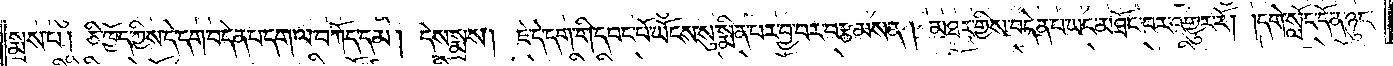སྨྲས་པ། ཅི་ཁྱོད་ཀྱིས་དེ་དག་བདེན་པ་དག་ལ་བཀོད་དམ། དེས་སྨྲས། ཇེ་དེ་དག་གི་དབང་པོ་ཡོངས་སུ་སྨིན་པར་བྱ་བར་བརྩམས་ན། མཐར་གྱིས་བདེན་པ་ཡང་མཐོང་བར་འགྱུར་རོ། །དགེ་སློང་དོན་ཉུང་
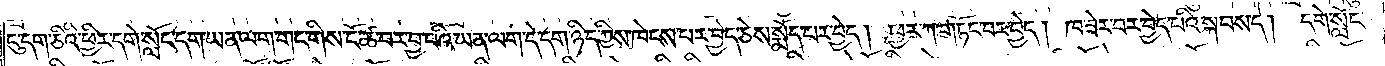ངུ་དག་ཅིའི་ཕྱིར་དགེ་སློང་དག་ཡན་ལག་གང་གིས་ངོ་ཚ་བར་བྱ་བའི་ཡན་ལག་དེ་དག་ཉིད་ཀྱིས་ཁེངས་པར་བྱེད་ཅེས་སྨོད་པར་བྱེད། ཕྱར་ཀ་གཏོང་བར་བྱེད། ཁ་ཟེར་བར་བྱེད་པའི་སྐབས་དེ། དགེ་སློང་
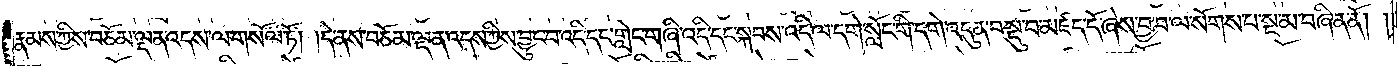རྣམས་ཀྱིས་བཅོམ་ལྡན་འདས་ལ་གསོལ་ཏོ། །དེ་ནས་བཅོམ་ལྡན་འདས་ཀྱིས་བྱུང་བ་འདི་དང་གླེང་གཞི་འདི་དང་སྐབས་འདི་ལ་དགེ་སློང་གི་དགེ་འདུན་བསྡུ་བ་མཛད་དོ་ཞེས་བྱ་བ་ལ་སོགས་པ་སྔ་མ་བཞིན་ནོ། །
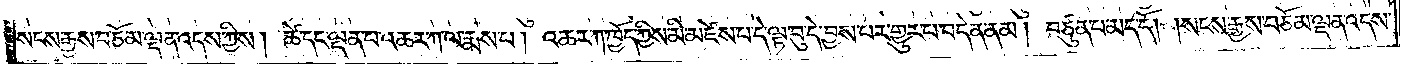སངས་རྒྱས་བཅོམ་ལྡན་འདས་ཀྱིས། ཚེ་དང་ལྡན་པ་འཆར་ཀ་ལ་རྨས་པ། འཆར་ཀ་ཁྱོད་ཀྱིས་མི་མཛེས་པ་དེ་ལྟ་བུ་དེ་བྱས་པར་གྱུར་པ་བདེན་ནམ། བཙུན་པ་མད་དོ། །སངས་རྒྱས་བཅོམ་ལྡན་འདས་
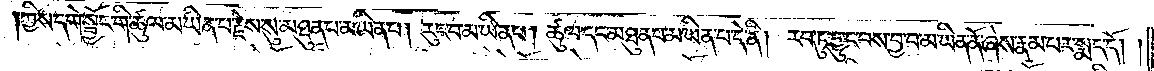ཀྱིས་དགེ་སྦྱོང་གི་ཚུལ་མ་ཡིན་པ་རྗེས་སུ་མཐུན་པ་མ་ཡིན་པ། རུང་བ་མ་ཡིན་པ། ཚུལ་དང་མཐུན་པ་མ་ཡིན་པ་དེ་ནི། རབ་ཏུ་བྱུང་བས་བྱ་བ་མ་ཡིན་ནོ་ཞེས་རྣམ་པར་སྨད་དོ། །
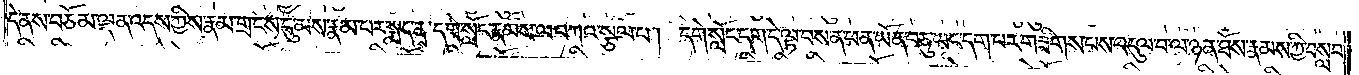དེ་ནས་བཅོམ་ལྡན་འདས་ཀྱིས་རྣམ་གྲངས་དུ་མས་རྣམ་པར་སྨད་ན་དགེ་སློང་རྣམས་ལ་བཀའ་སྩལ་པ། དགེ་སློང་དག་དེ་ལྟ་བས་ན་ཕན་ཡོན་བཅུ་ཡང་དག་པར་གཟིགས་པས་འདུལ་བ་ལ་ཉན་ཐོས་རྣམས་ཀྱི་བསླབ་
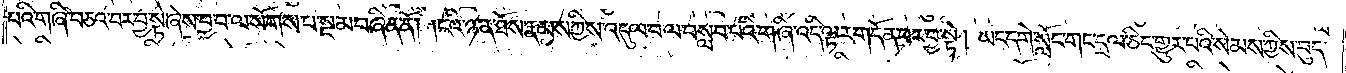པའི་གཞི་བཅའ་བར་བྱ་སྟེ་ཞེས་བྱ་བ་ལ་སོགས་པ་སྔ་མ་བཞིན་ནོ། །ངའི་ཉན་ཐོས་རྣམས་ཀྱིས་འདུལ་བ་ལ་བསླབ་པའི་གཞི་འདི་ལྟར་གདོན་པར་བྱ་སྟེ། ཡང་དགེ་སློང་གང་དྲལ་ཅིང་གྱུར་པའི་སེམས་ཀྱིས་བུད་
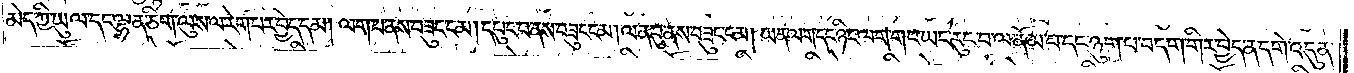མེད་ཀྱི་ཡུལ་དང་ལྷན་ཅིག་ལུས་ལ་རེག་པར་བྱེད་དམ། ལག་པ་ནས་བཟུང་ངམ། དཔུང་པ་ནས་བཟུང་ངམ། ལན་བུ་ནས་བཟུང་ངམ། ཡན་ལག་དང་ཉིང་ལག་གང་ཡང་རུང་བ་ལ་ནོམ་པ་དང་ཉུག་པ་བདག་གིར་བྱེད་ན་དགེ་འདུན་
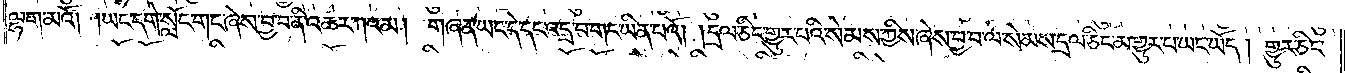ལྷག་མའོ། །ཡང་དགེ་སློང་གང་ཞེས་བྱ་བ་ནི་འཆར་ཀའམ། གཞན་ཡང་དེ་དང་འདྲ་བ་གང་ཡིན་པའོ། །དྲལ་ཅིང་གྱུར་པའི་སེམས་ཀྱིས་ཞེས་བྱ་བ་ལ་སེམས་དྲལ་ཅིང་མ་གྱུར་པ་ཡང་ཡོད། གྱུར་ཅིང་
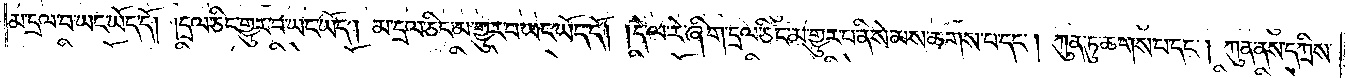མ་དྲལ་བ་ཡང་ཡོད་དོ། །དྲལ་ཅིང་གྱུར་བ་ཡང་ཡོད། མ་དྲལ་ཅིང་མ་གྱུར་པ་ཡང་ཡོད་དོ། །དེ་ལ་རེ་ཞིག་དྲལ་ཅིང་མ་གྱུར་པ་ནི་སེམས་ཆགས་པ་དང༌། ཀུན་ཏུ་ཆགས་པ་དང༌། ཀུན་ནས་དཀྲིས་
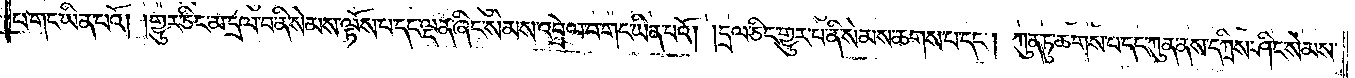པ་གང་ཡིན་པའོ། །གྱུར་ཅིང་མ་དྲལ་བ་ནི་སེམས་ལྟོས་པ་དང་ལྡན་ཞིང་སེམས་འབྲེལ་བ་གང་ཡིན་པའོ། །དྲལ་ཅིང་གྱུར་པ་ནི་སེམས་ཆགས་པ་དང༌། ཀུན་ཏུ་ཆགས་པ་དང་ཀུན་ནས་དཀྲིས་ཤིང་སེམས་
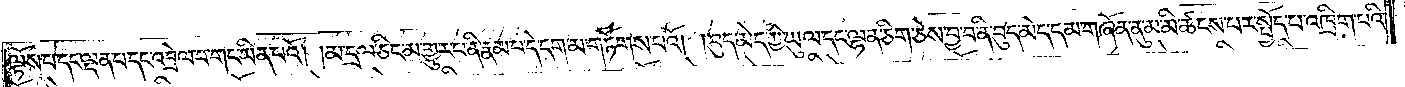ལྟོས་པ་དང་ལྡན་པ་དང་འབྲེལ་བ་གང་ཡིན་པའོ། །མ་དྲལ་ཅིང་མ་གྱུར་པ་ནི་རྣམ་པ་དེ་དག་མ་གཏོགས་པའོ། །བུད་མེད་ཀྱི་ཡུལ་དང་ལྷན་ཅིག་ཅེས་བྱ་བ་ནི་བུད་མེད་དམ་གཞོན་ནུ་མ་མི་ཚངས་པར་སྤྱོད་པ་འཁྲིག་པའི་
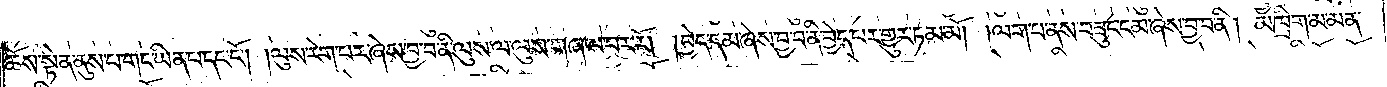ཆོས་སྟོན་ནུས་པ་གང་ཡིན་པ་དང་ངོ༌། །ལུས་རེག་པར་ཞེས་བྱ་བ་ནི་ལུས་ལ་ལུས་གཞལ་བར་རོ། །བྱེད་དམ་ཞེས་བྱ་བ་ནི་བྱེད་པར་གྱུར་ཏམ་མོ། །ལག་པ་ནས་བཟུང་ངམ་ཞེས་བྱ་བ་ནི། མཁྲིག་མ་མན་
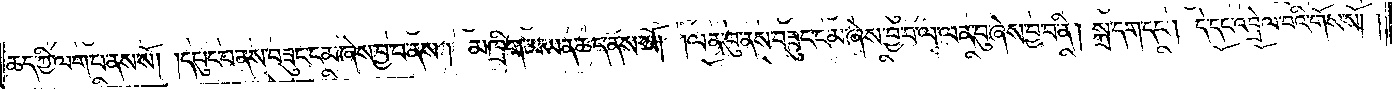ཆད་ཀྱི་ལག་པ་ནས་སོ། །དཔུང་པ་ནས་བཟུང་ངམ་ཞེས་བྱ་བ་ནས། མཁྲིག་མ་ཡན་ཆད་ནས་སོ། །ལན་བུ་ནས་བཟུང་ངམ་ཞེས་བྱ་བ་ལ་ལན་བུ་ཞེས་བྱ་བ་ནི། སྐྲ་དག་དང༌། དེ་དང་འབྲེལ་བའི་གོས་སོ། །
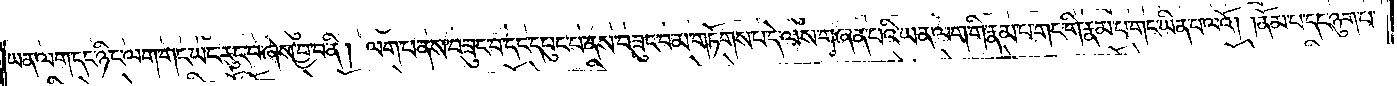ཡན་ལག་དང་ཉིང་ལག་གང་ཡང་རུང་བ་ཞེས་བྱ་བ་ནི། ལག་པ་ནས་བཟུང་བ་དང་དཔུང་པ་ནས་བཟུང་བ་མ་གཏོགས་པ་དེ་ལས་གཞན་པའི་ཡན་ལག་གི་རྣམ་པ་གང་གི་རྣམ་པ་གང་ཡིན་པ་ལའོ། །ནོམ་པ་དང་ཉུག་པ་
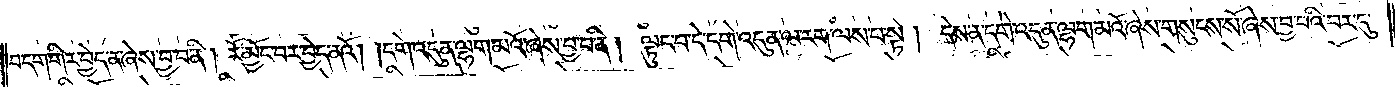བདག་གིར་བྱེད་ན་ཞེས་བྱ་བ་ནི། རོ་མྱོང་བར་བྱེད་ནའོ། །དགེ་འདུན་ལྷག་མའོ་ཞེས་བྱ་བ་ནི། ལྟུང་བ་དེ་དགེ་འདུན་ལ་རག་ལས་པ་སྟེ། དེས་ན་དགེ་འདུན་ལྷག་མའོ་ཞེས་གསུངས་སོ་ཞེས་བྱ་བའི་བར་དུ་
